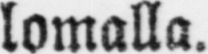lomalla.
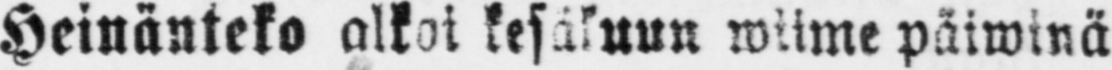Heinänteko kesäkuun wiime päiwinä
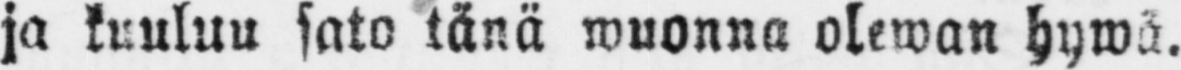ja kuuluu sato tänä wuonna olewan hywä.
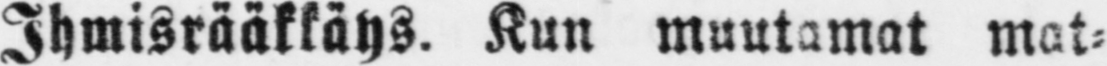Ihmisrääkkäys. Kun muutamat mat-
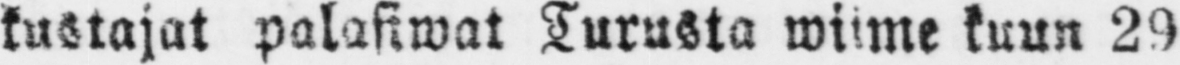kustajat palasiwat Turusta wiime kuun 29
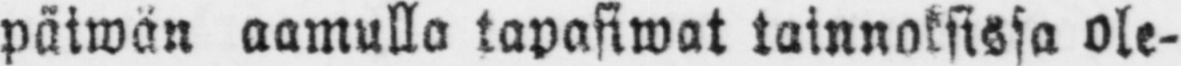päiwän aamulla tapasiwat tainnoksissa ole-
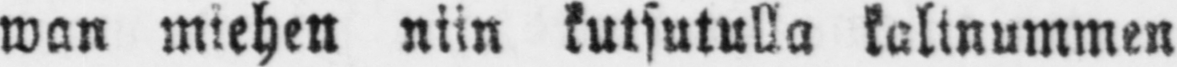wan miehen niin kutsutulla kalinummen
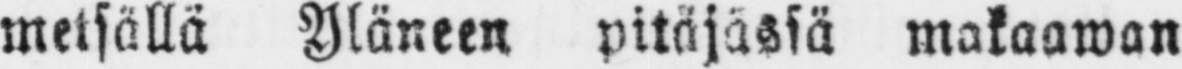metsällä Yläneen pitäjässä makaawan
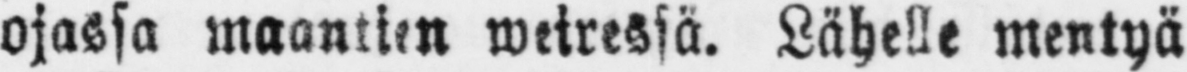ojassa maantien weiressä. Lähelle mentyä
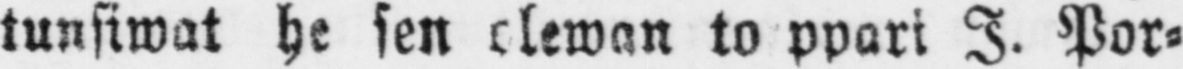tunsiwat he sen olewan to ppari I. Por-
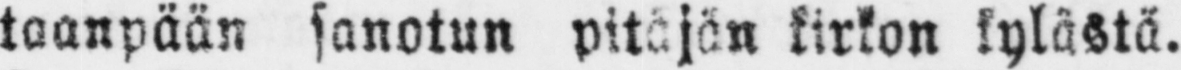taanpään sanotun pitäjän kirkon kylästä.
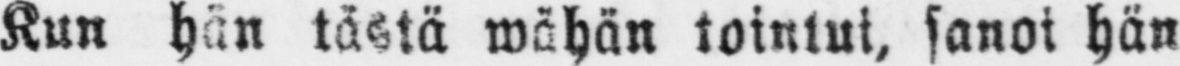Kun hän tästä wähän tointui, sanoi hän
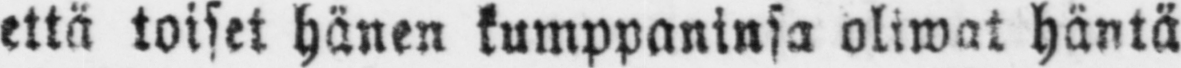että toiset hänen kumppaninsa oliwat häntä
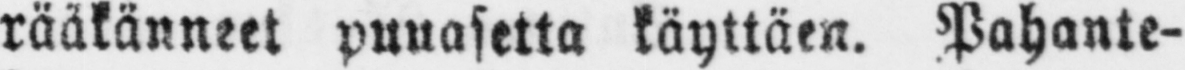rääkänneet puuasetta käyttäen. Pahante-
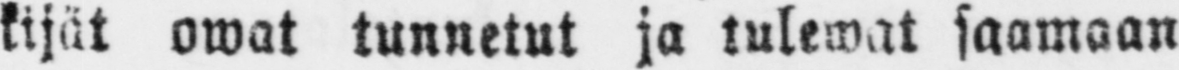kijät owat tunnetut ja tulewat saamaan
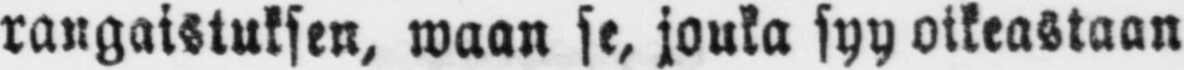rangaistuksen, waan se, jouka syy oikeastaan
